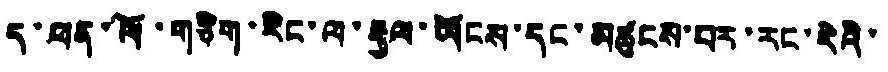ད་ཕན་ཁོ་གཅིག་རིང་ལ་རྒྱལ་ཡོངས་དང་མཚུངས་པར་རང་རེའི་
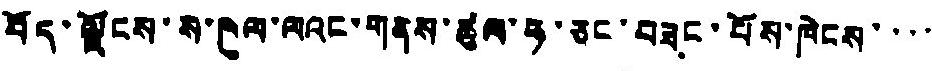བོད་ལྗོངས་ས་ཁུལ་ལའང་གནས་ཚུལ་ཧ་ཅང་བཟང་པོས་ཁེངས་་་་
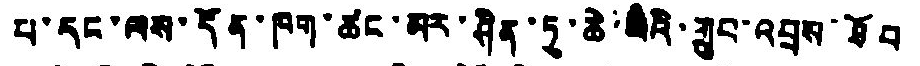པ་དང་ལས་དོན་ཁག་ཚང་མར་ཤིན་ཏུ་ཆེ་བའི་གྲུབ་འབྲས་ཐོབ
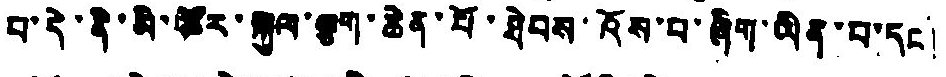བ་དེ་ནི་མི་ཚར་སྐྱལ་ལྕག་ཆེན་པོ་ཐེབས་འོས་པ་ཞིག་ཡིན་པ་དང།
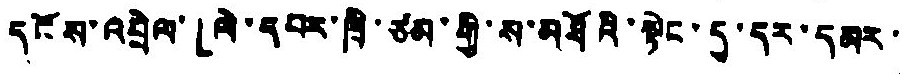དངོས་འབྲེལ་「ལེ་དཔར་ཁྲི་ཙམ་གྱི་ས་མཐོའི་སྟེང་དུ་དར་དམར་
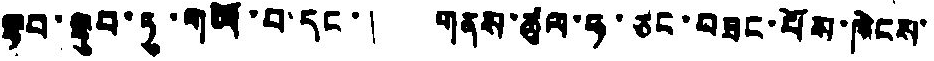ལྷབ་ལྷུབ་ཏུ་གཡོ་བ་དང་། གནས་ཚུལ་ཧ་ཅང་བཟང་པོས་ཁེངས་
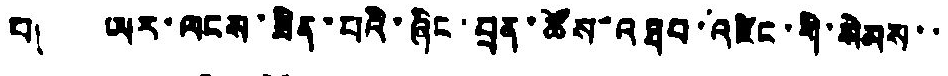པ། ཡར་ལངས་ཟིན་པའི་ཞིང་བྲན་ཚོས་འཐབ་འཛིང་གི་སེམས་་
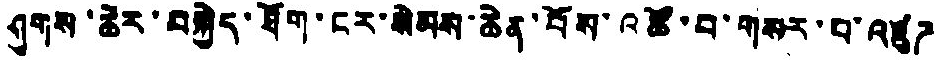ཤུགས་ཆེར་བསྐྱེད་ཐོག་ངར་སེམས་ཆེན་པོས་འཚོ་བ་གསར་བ་འཛུཌ
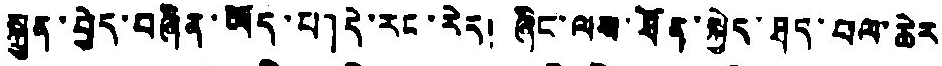སྐྲུན་བྱེད་བཞིན་ཡོད་པ」དེ་རང་རེད། ཞིང་ལས་ཐོན་སྐྱེད་ཐད་བལ་ཆེར
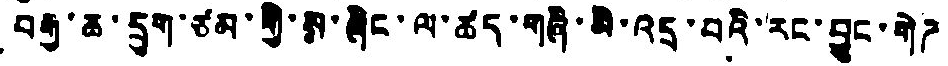བརྒྱ་ཆ་དྲུག་ཙམ་གྱི་ས་ཞིང་ལ་ཚད་གཞི་མི་འདྲ་བའི་རང་བྱུང་གེཌ
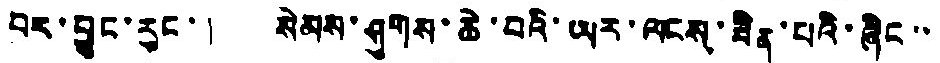བར་བྱུང་རུང་། སེམས་ཤུགས་ཆེ་བའི་ཡར་ལངས་ཟིན་པའི་ཞིང་་
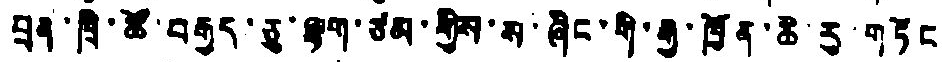བྲན་ཁྲི་ཚོ་བརྒྱད་ཅུ་ལྷག་ཙམ་གྱིས་ས་ཞིང་གི་རྒྱ་ཁྱོན་ཆི་རུ་གཏོང
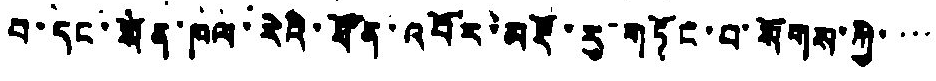བ་དང་ཐོན་ཁལ་རེའི་ཐོན་འབོར་མདོ་རུ་གཏོང་བ་སོགས་ཀྱི་་་་
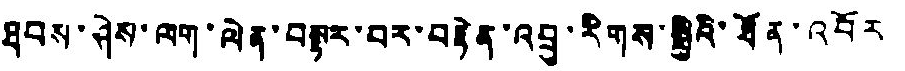ཐབས་ཤེས་ལག་ལེན་བསྟར་བར་བརྟེན་འབྲུ་རིགས་སྤྱིའི་ཐོན་འབོར
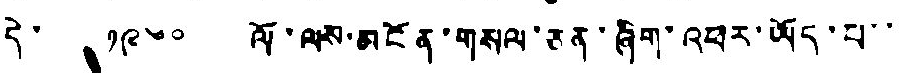དེ་ ༡༩༦༠ ལོ་ལས་མངོན་གསལ་ཅན་ཞིག་འཕར་ཡོད་པ་་
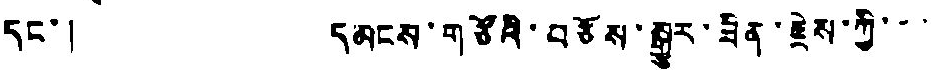དང་། དམངས་གཙོའི་བཅོས་སྒྱུར་ཟིན་རྗེས་ཀྱི་་་
